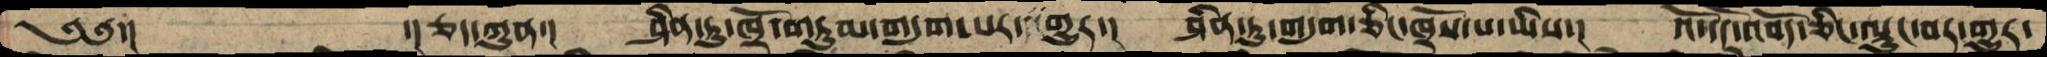༄༅་།    ་།ཅད་ཀུན་།  ཤིན་ཏུ་ཁྲོ་གཏུམ་གདུག་པར་ གྱུར་།  ཤིན་ཏུ་གདུག་ཅིང་ཁྲོས་པ་ཡིས་།  འོ་དོད་འབོད་ཅིང་ལྟུང་བར་གྱུར་
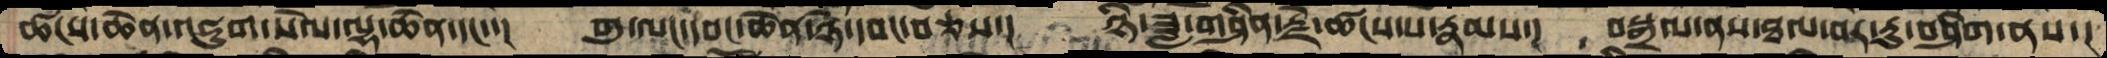ཚངས་ཆེན་འཇུག་སེལ་ལྷ་ཆེན་དང་་།  གུ་ལང་དབང་ཆེན་ཉེ་དབང་བཅས་།  ཉི་ཟླ་གཤིན་རྗེ་ཚངས་པ་རྣམས་།  བསྒྲལ་ནས་ཐལ་བར་རུ་བཤིག་ནས་།
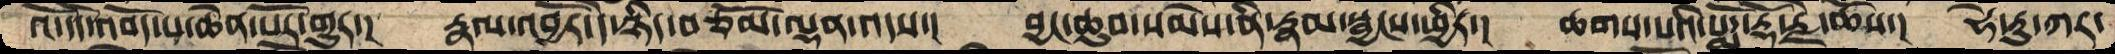འོ་དདོ་འབོད་པ་ཆེན་པོར་གྱུར་།  རྣལ་འབྱོར་དེ་ཉིད་བཅོམ་ལྡན་འདས་།  བྱང་ཆུབ་སེམས་ནི་རྣམ་སྦྱངས་ཕྱིར་། ཆགས་པའི་པདྨོ་རྡོ་རྗེ་ཆོས་།  ཧེ་རུ་ཀར་
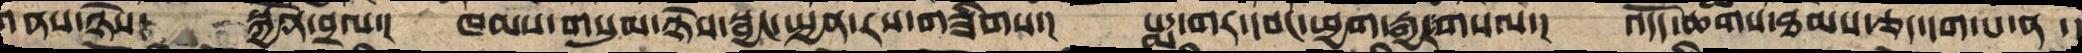གནས་ཉེས་   སྐྱོན་བྲལ་།  ཁམས་གསུམ་ཉེས་སྦྱང་་སྤྱན་རས་གཟིགས་། པདྨ་གར་དབང་ཕྱག་རྒྱར་གསལ་།  འདོད་ཆགས་ཐམས་ཅད་དག་པ་ན ་།
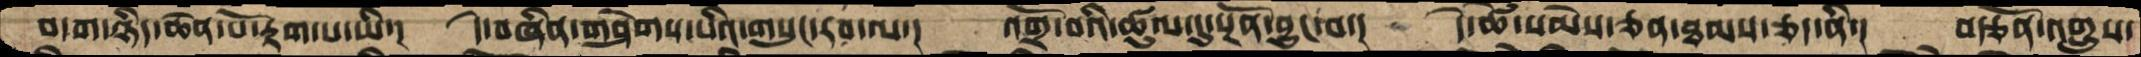བདག་ཉིད་ཆེན་པོ་རྟག་པ་ཡི་།  དེ་བཞིན་གཤེགས་པའི་གསུང་རབ་ལ་།  འགྲོ་བའི་ཚུལ་དུ་སྔོན་བྱུང་བ་།  དེ་ཚེ་སེམས་ཅན་ཐམས་ཅད་ནི་།  བརྩོན་འགྲུས་
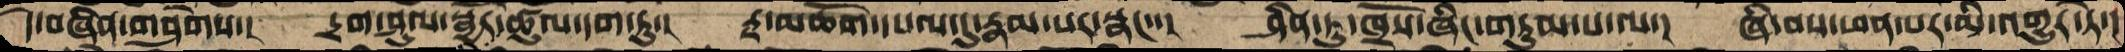དེ་བཞིན་གཤེགས་།  དྲག་ཤུལ་སྦྱོར་ཚུལ་དག་ཏུ་།  རྟ་མཆོག་དཔལ་དུ་རྣམ་པར་སྣང་་།  ཤིན་ཏུ་ཁྲོས་ཞིང་གཏུམ་པ་ལ་།  ཞི་བས་ཕན་པར་མི་འགྱུར་ཏེ་།
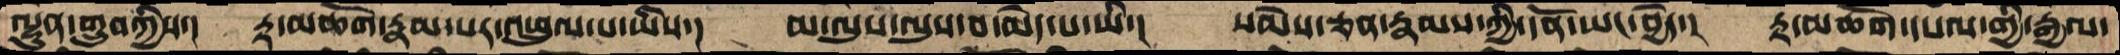ལྷུན་གྲུབ་ཀྱིས་།  རྟ་མཆོག་རྣམ་པར་འཕྲུལ་པ་ཡིས་།  མ་ལུས་ལུས་བ་མེད་པ་ཡི་།  སེམས་ཅན་རྣམས་ཀྱི་དོན་ཡང་བྱེད་།  རྟ་མཆོག་དཔལ་གྱི་རྒྱལ་
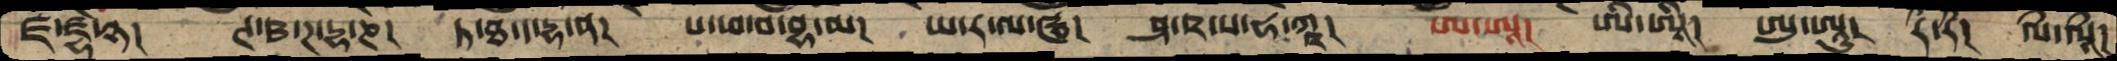ཛ་ཛྷ་ཉ།  ཊ་ཋ་ཌ་ཌྷ་ཎ།  ཏ་ཐ་ད་དྷ་ན།  པ་ཕ་བ་བྷ་མ།  ཡ་ར་ལ་ཝ།  ཤ་ཥ་ས་ཧ་ཀྵ།  ཨ་ཨཱ།  ཨི་ཨཱི།  ཨུ་ཨཱུ།  རྀ་རྀ།  ལྀ་ལཱྀ།
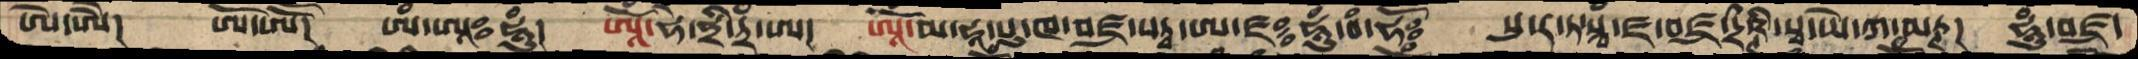ཨེ་ཨཻ།  ཨོ་ཨཽ།  ཨཾ་ཨཱཿཧཱུཾ།  ཨཱོཾ་ཧེ་ཧྲི་ཏྲཾ་ཨ།  ཨཱོཾ་མ་ཧཱ་སུ་ཁ་བཛྲ་སཏྭ་ཨ་ཛཿཧཱུཾ་བཾ་ཧོཿ  སུ་ར་ཏ་སྟྭཾ་ཛ་བཛྲ་དྲྀཥྚི་སྭ་ཡེ་ཀ་མཏྚ།  ཧཱུཾ་བཛྲ་
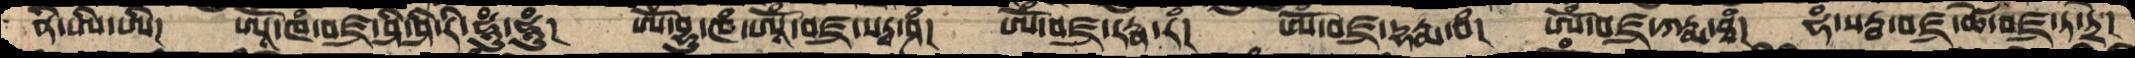ནི་ཨི་ཨི།  ཨཱོཾ་ཁཾ་བཛྲ་ཤི་ཤི་རི་ཧཱུཾ་ཧཱུཾ།  ཨོཾ་བྷུ་ཁཾ་ཨཱོཾ་བཛྲ་སཏྭ་ཤཾ།  ཨོཾ་བཛྲ་རཏྣ་རཾ།  ཨོཾ་བཛྲ་དྷརྨ་བཾ།  ཨོཾ་བཛྲ་ཀརྨ་ཐཾ།  ཧཾ་སརྦ་བཛྲ་ཚེ་བཛྲ་ཏ་ཏྲེ།
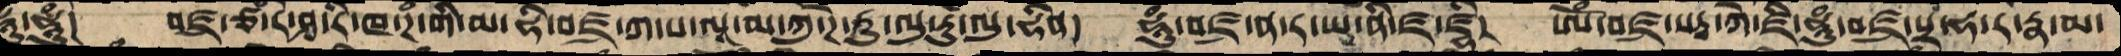ཧུ་ཧཱུཾ།  བཛྲ་ཙ་ར་ཤྭ་རི་ཁ་ཌཾ་གི་མ་ཧི་བཛྲ་ཀ་པ་ལཱ་མ་ཀུ་ཌེ་རུ་ལུ་རུ་ལུ་ཧིན།  ཧཱུཾ་བཛྲ་ན་ར་ཡ་ནི་ཛ་ཛྭི།  ཨོཾ་བཛྲ་སཏྭ་ཀེ་ཛི་ཧཱུཾ་བཛྲ་པྲ་ཧ་ར་རྣ་མ་
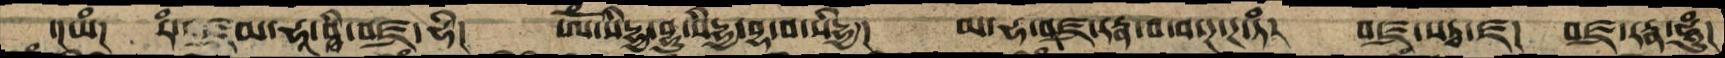་།ཡཾ།   རཾ་   མ་ཧཱ་ཤྭི་བཛྲ་ཧི།  ཨོཾ་སི་དྷྱ་བྷུ་སི་བྷྱ་བྷ་བ་སིདྷྱ།  མ་ཧ་བཛྲ་རཏྣ་བ་བ་ཌ་ཌ་ཏཾ།  བཛྲ་སཏྭ་ཛ།  བཛྲ་རཏྣ་ཧཱུཾ།
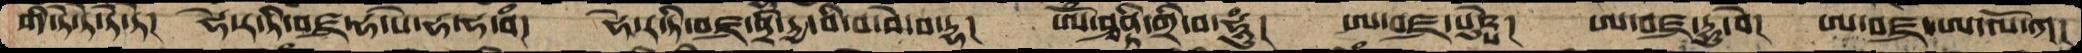གི་ཏེ་ཏེ་ཏེ་ཏེ།  ཧེ་ར་ཏི་བཛྲ་ཧ་སེ་ཧ་ཧ་བཾ།  ཧེ་ར་ཏི་བཛྲ་ནྲི་ཏྱ་བི་བ་བེ་བ་དྷ།  ཨོཾ་ཤྭནྟི་གྲི་བ་ཧཱུཾ།  ཨ་བཛྲ་པུཥྤེ།  ཨ་བཛྲ་དྷུ་བེ།  ཨ་བཛྲ་ཨ་ལོ་ཀ།
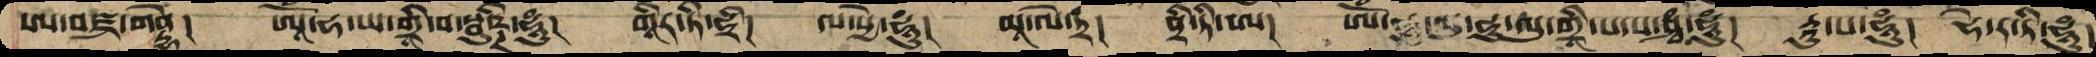ཨ་བཛྲ་གནྡྷེ།  ཨཱོཾ་ཧ་ཡ་གྲཱི་བ་སྦུཥྚི་ཧཱུཾ།  གཱིར་ཏི་ཧྲི།  ལ་སྱེ་ཧཱུཾ།  མཱ་ལེ་ཏྲཾ།  ནྲི་ཏི་ཨ།  ཨོཾ་ཧུ་ལུ་ཧུ་ལུ་གྲཱི་པ་པ་ཤྭཾ་ཧཱུཾ།  རྡུ་པ་ཧཱུཾ།  ཧེ་ར་ཏི་ཧཱུཾ།
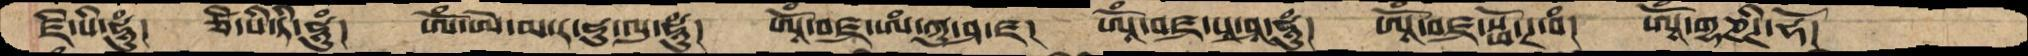ཛི་སི་ཧཱུཾ།  ཙི་པི་ཏི་ཧཱུཾ།  ཨོཾ་ཨེ་མ་ར་ཧུ་ལུ་ཧཱུཾ།  ཨཱོཾ་བཛྲ་ཨཾ་ཀུ་ཤ་ཛ།  ཨཱོཾ་བཛྲ་པཱ་ཤཱ་ཧཱུཾ།  ཨཱོཾ་བཛྲ་སྥོ་ཊ་བཾ།  ཨཱོཾ་གྷཎྚི་ཧོ།
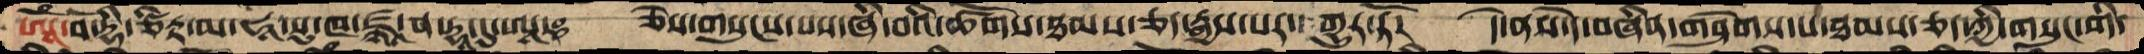ཨཱོཾ་བོ་དྷཱི་ཙིརྟ་མ་ཧཱ་སུ་ཁ་ཛྙཱ་ན་དྷཱ་དུ་ཨཱ་ཿ  ཅེས་གསུངས་པས་ཞི་བའི་ཚོགས་ཐམས་ཅད་རྒྱས་པར་ གྱུར་ཏོ།  དེ་ནས་དེ་བཞིན་གཤེགས་པ་ཐམས་ཅད་ཀྱི་གསུང་གི་
